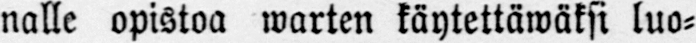nalle opistoa warten käytettäwäksi luo-
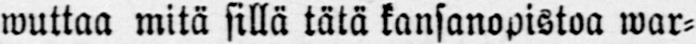wuttaa mitä sillä tätä kansanopistoa war-
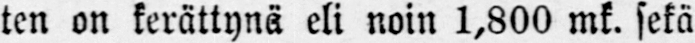ten on kerättynä eli noin 1,800 mk. sekä
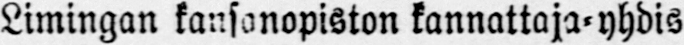Limingan kansanopiston kannattaja-yhdis
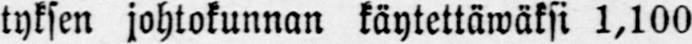tyksen johtokunnan käytettäwäksi 1,100
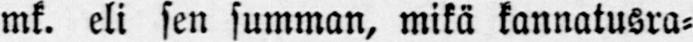mk. eli sen summan, mikä kannatusra-
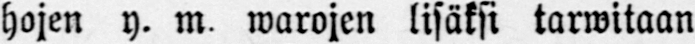hojen y. m. warojen lisäksi tarwitaan
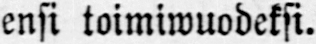ensi toimiwuodeksi.
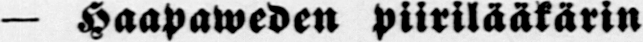— Haapaweden piirilääkärin
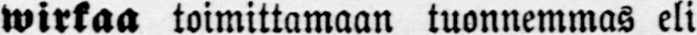wirkaa toimittamaan tuonnemmas eli
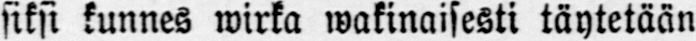siksi kunnes wirka wakinaisesti täytetään
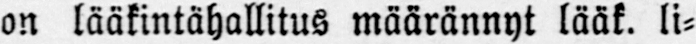on lääkintöhallitus määrännyt lääk. li-
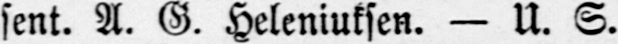sent. A. G. Heleniuksen. — U. S.
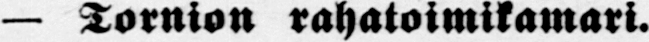— Tornion rahatoimikamari.
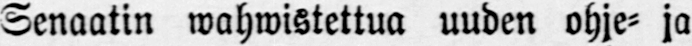Senaatin wahwistettua uuden ohje- ja
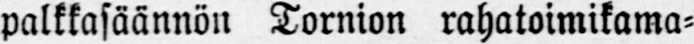palkkasäännön Tornion rahatoimikama-
